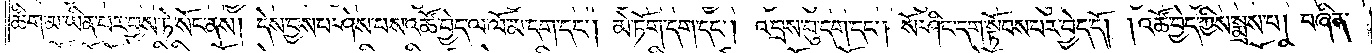ཚིག་མ་ཡིན་པར་བྱས་ཏེ་སོང་ནས། དེས་བྱས་པ་ཤེས་པས་འཚོ་བྱེད་ལ་ལོ་མ་དག་དང༌། མེ་ཏོག་དག་དང༌། འབྲས་བུ་དག་དང༌། སོ་ཤིང་དག་སྟོབས་པར་བྱེད་དོ། །འཚོ་བྱེད་ཀྱིས་སྨྲས་པ། བཞིན་
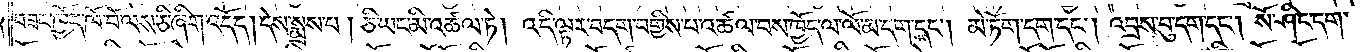བཟང་ཁྱོད་ཁོ་བོ་ལས་ཅི་ཞིག་འདོད། དེས་སྨྲས་པ། ཅི་ཡང་མི་འཚལ་ཏེ། འདི་ལྟར་བདག་བགྱིས་པ་འཚལ་བས་ཁྱོད་ལ་ལོ་མ་དག་དང༌། མེ་ཏོག་དག་དང༌། འབྲས་བུ་དག་དང༌། སོ་ཤིང་དག་
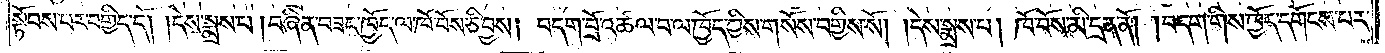སྟོབས་པར་བགྱིད་དོ། །དེས་སྨྲས་པ། བཞིན་བཟང་ཁྱོད་ལ་ཁོ་བོས་ཅི་བྱས། བདག་བྲོ་འཚལ་བ་ལ་ཁྱོད་ཀྱིས་གསོས་བགྱིས་སོ། །དེས་སྨྲས་པ། ཁོ་བོས་མི་དྲན་ནོ། །བདག་གིས་ཁྱོད་དགོངས་པར་
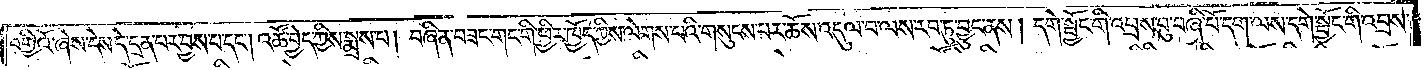བགྱིའོ་ཞེས་དེས་དེ་དྲན་པར་བྱས་པ་དང༌། འཚོ་བྱེད་ཀྱིས་སྨྲས་པ། བཞིན་བཟང་གང་གི་ཕྱིར་ཁྱོད་ཀྱིས་ལེགས་པའི་གསུངས་པར་ཆོས་འདུལ་བ་ལས་རབ་ཏུ་བྱུང་ནས། དགེ་སྦྱོང་གི་འབྲས་བུ་བཞི་པོ་དག་ལས་དགེ་སྦྱོང་གི་འབྲས་
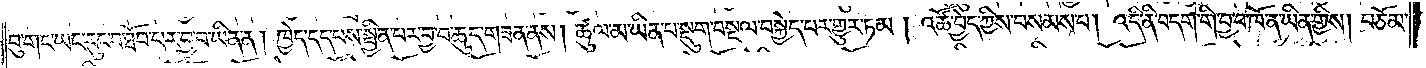བུ་གང་ཡང་རུང་བ་ཐོབ་པར་བྱ་བ་ཡིན་ན། ཁྱེད་དད་པས་སྦྱིན་པར་བྱ་བ་ཆུད་གཟན་ནས། ཚུལ་མ་ཡིན་པ་སྡུག་བསྔལ་བསྐྱེད་པར་གྱུར་ཏམ། འཚོ་བྱེད་ཀྱིས་བསམས་པ། འདི་ནི་བདག་གི་བྱ་བ་ཁོ་ན་ཡིན་གྱིས། བཅོམ་
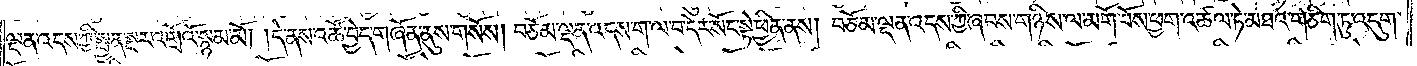ལྡན་འདས་ཀྱི་སྤྱན་སྔར་འགྲོའོ་སྙམ་མོ། །དེ་ནས་འཚོ་བྱེད་གཞོན་ནུས་གསོས། བཅོམ་ལྡན་འདས་ག་ལ་བ་དེར་སོང་སྟེ་ཕྱིན་ནས། བཅོམ་ལྡན་འདས་ཀྱི་ཞབས་གཉིས་ལ་མགོ་བོས་ཕྱག་འཚལ་ཏེ་མཐའ་གཅིག་ཏུ་འདུག་
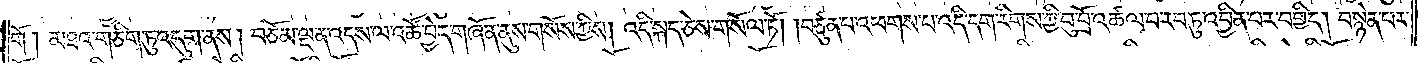གོ། མཐའ་གཅིག་ཏུ་འདུག་ནས། བཅོམ་ལྡན་འདས་ལ་འཚོ་བྱེད་གཞོན་ནུས་གསོས་ཀྱིས། འདི་སྐད་ཅེས་གསོལ་ཏོ། །བཙུན་པ་འཕགས་པ་འདི་དག་རིགས་ཀྱི་བུ་བྲོ་འཚལ་བ་རབ་ཏུ་འབྱིན་པར་བགྱིད། བསྙེན་པར་
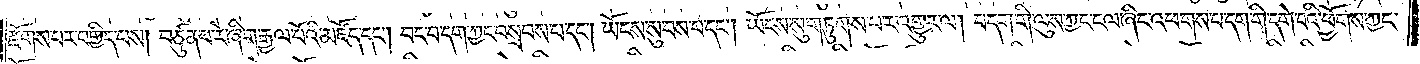རྫོགས་པར་བགྱིད་པས། བཙུན་པ་རེ་ཞིག་རྒྱལ་པོའི་མཛོད་དང༌། བང་བ་དག་ཀྱང་བསྲབས་པ་དང༌། ཡོངས་སུ་བས་པ་དང༌། ཡོངས་སུ་གཏུགས་པར་འགྱུར་ལ། བདག་གི་ལུས་ཀྱང་ངལ་ཞིང་འཕགས་པ་དག་གི་དགེ་བའི་ཕྱོགས་ཀྱང་
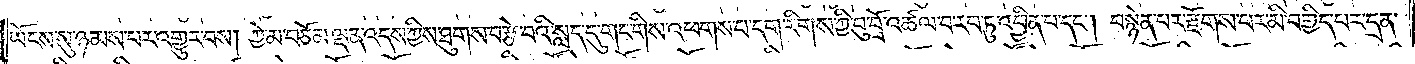ཡོངས་སུ་ཉམས་པར་འགྱུར་བས། ཀྱེ་མ་བཅོམ་ལྡན་འདས་ཀྱིས་ཐུགས་བརྩེ་བའི་སླད་དུ་གང་གིས་འཕགས་པ་དག་རིགས་ཀྱི་བུ་བྲོ་འཚལ་བ་རབ་ཏུ་འབྱིན་པ་དང༌། བསྙེན་པར་རྫོགས་པར་མི་བགྱིད་པར་དྲན་
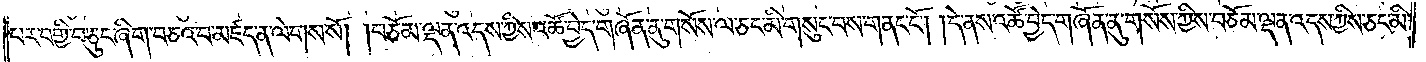པར་བགྱི་བ་ཅུང་ཞིག་བཅའ་བ་མཛད་ན་ལེགས་སོ། །བཅོམ་ལྡན་འདས་ཀྱིས་འཚོ་བྱེད་གཞོན་ནུ་གསོས་ལ་ཅང་མི་གསུང་བས་གནང་ངོ༌། །དེ་ནས་འཚོ་བྱེད་གཞོན་ནུ་གསོས་ཀྱིས་བཅོམ་ལྡན་འདས་ཀྱིས་ཅང་མི་
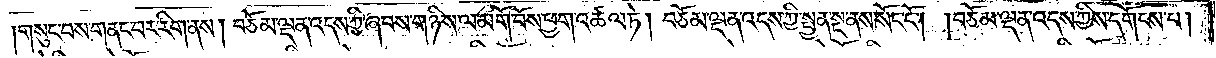།གསུང་བས་གནང་བར་རིག་ནས། བཅོམ་ལྡན་འདས་ཀྱི་ཞབས་གཉིས་ལ་མགོ་བོས་ཕྱག་འཚལ་ཏེ། བཅོམ་ལྡན་འདས་ཀྱི་སྤྱན་སྔ་ནས་སོང་ངོ༌། །བཅོམ་ལྡན་འདས་ཀྱིས་དགོངས་པ།
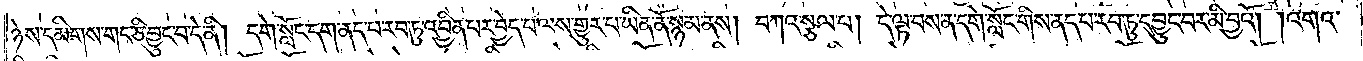ཉེས་དམིགས་གང་ཅི་བྱུང་བ་དེ་ནི། དགེ་སློང་དག་ནད་པ་རབ་ཏུ་འབྱིན་པར་བྱེད་པ་ལས་གྱུར་པ་ཡིན་ནོ་སྙམ་ནས། བཀའ་སྩལ་པ། དེ་ལྟ་བས་ན་དགེ་སློང་གིས་ནད་པ་རབ་ཏུ་དབྱུང་བར་མི་བྱའོ། །འགའ་
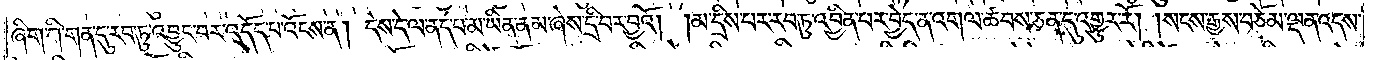ཞིག་གི་གན་དུ་རབ་ཏུ་འབྱུང་བར་འདོད་པ་འོངས་ན། དེས་དེ་ལ་ནད་པ་མ་ཡིན་ནམ་ཞེས་དྲི་བར་བྱའོ། །མ་དྲིས་པར་རབ་ཏུ་འབྱིན་པར་བྱེད་ན་འགལ་ཚབས་ཅན་དུ་འགྱུར་རོ། །སངས་རྒྱས་བཅོམ་ལྡན་འདས་
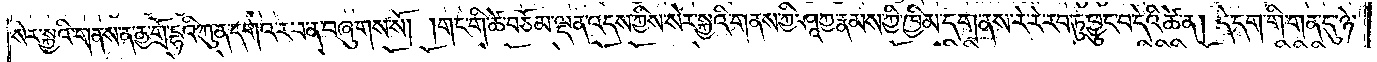སེར་སྐྱའི་གནས་ན་ནྱ་གྲོ་དྷའི་ཀུན་དགའ་ར་བ་ན་བཞུགས་སོ། །གང་གི་ཚེ་བཅོམ་ལྡན་འདས་ཀྱིས་སེར་སྐྱའི་གནས་ཀྱི་ཤཱཀྱ་རྣམས་ཀྱི་ཁྱིམ་དག་ནས་རེ་རེ་རབ་ཏུ་ཕྱུང་བ་དེའི་ཚེ་ན། དེ་དག་གི་གན་དུ་ཉེ་
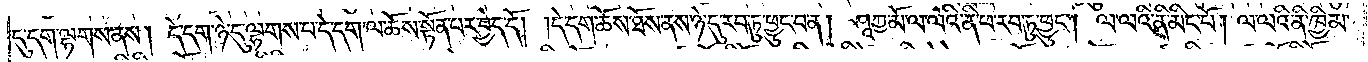དུ་དག་ལྷགས་ནས། དེ་དག་ཉེ་དུ་ལྷགས་པ་དེ་དག་ལ་ཆོས་སྟོན་པར་བྱེད་དོ། །དེ་དག་ཆོས་ཐོས་ནས་ཉེ་དུ་རབ་ཏུ་ཕྱུང་བ་ན། ཤཱཀྱ་མོ་ལ་ལའི་ནི་ཕ་རབ་ཏུ་ཕྱུང༌། ལ་ལའི་ནི་མིང་པོ། ལ་ལའི་ནི་ཁྱིམ་
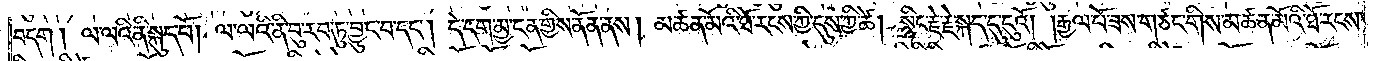བདག། ལ་ལའི་ནི་སྐུད་པོ། ལ་ལའི་ནི་བུ་རབ་ཏུ་བྱུང་བ་དང༌། དེ་དག་མྱ་ངན་གྱིས་ནོན་ནས། མཚན་མོའི་ཐོ་རངས་ཀྱི་དུས་ཀྱི་ཚེ། སྙིང་རྗེ་རྗེ་སྐད་དུ་དུའོ། །རྒྱལ་པོ་ཟས་གཙང་གིས་མཚན་མོའི་ཐོ་རངས་
